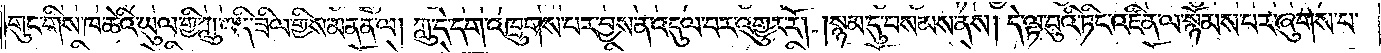གུང་གིས་ཁ་ཆེའི་ཡུལ་གྱི་ཀླུ་འདི་ཟིལ་གྱིས་མནན་ལ། ཀླུ་དེ་དག་འཁྲུགས་པར་བྱས་ན་འདུལ་བར་འགྱུར་རོ། །སྙམ་དུ་བསམས་ནས། དེ་ལྟ་བུའི་ཏིང་འཛིན་ལ་སྙོམས་པར་ཞུགས་པ་
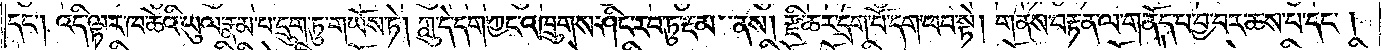དང༌། འདི་ལྟར་ཁ་ཆེའི་ཡུལ་རྣམ་པ་དྲུག་ཏུ་གཡོས་ཏེ། ཀླུ་དེ་དག་ཀྱང་འཁྲུགས་ཤིང་རབ་ཏུ་རྔམ་ནས། རྫི་ཆར་དྲག་པོ་དག་ཕབ་སྟེ། གནས་བརྟན་ལ་གནོད་པ་བྱ་བར་ཆས་པ་དང་།
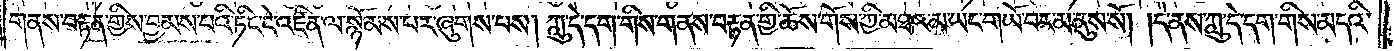གནས་བརྟན་གྱིས་བྱམས་པའི་ཏིང་ངེ་འཛིན་ལ་སྙོམས་པར་ཞུགས་པས། ཀླུ་དེ་དག་གིས་གནས་བརྟན་གྱི་ཆོས་གོས་ཀྱི་མཐའ་མ་ཡང་གཡོ་བར་མ་ནུས་སོ། །དེ་ནས་ཀླུ་དེ་དག་གིས་མདའི་
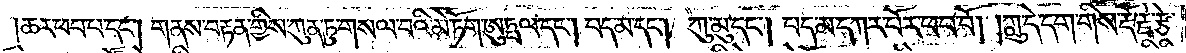།ཆར་ཕབ་པ་དང༌། གནས་བརྟན་གྱིས་ཀུན་ཏུ་གསལ་བའི་མེ་ཏོག་ཨུཏྤལ་དང༌། པད་མ་དང༌། ཀུ་མུ་དང༌། པད་མ་དཀར་པོར་ཕབ་བོ། །ཀླུ་དེ་དག་གིས་རྡོ་རྗེ་རྩེ་
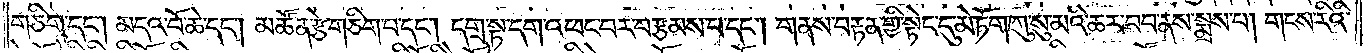གཅིག་དང༌། མདའ་བོ་ཆེ་དང༌། མཚོན་རྩེ་གཅིག་པ་དང༌། དགྲ་སྟ་དག་འཕང་བར་བརྩམས་པ་དང༌། གནས་བརྟན་གྱི་སྟེང་དུ་མེ་ཏོག་ཀུ་སུ་མའི་ཆར་བབ་ནས་སྨྲས་པ། གངས་རིའི་
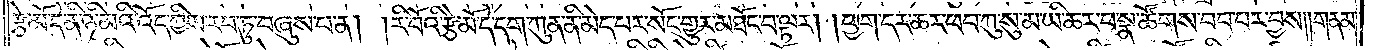རྩེ་མོ་དེ་ནི་ཉི་མའི་འོད་ཀྱིས་རབ་ཏུ་བཞུས་པ་ན། རི་བོའི་རྩེ་མོ་དེ་དག་ཀུན་ནི་མེད་པར་སོང་གྱུར་མཐོང་བ་ལྟར། ཕྱག་དར་ཆར་ཕབ་ཀུ་སུ་མ་ཡི་ཆར་བ་སྣ་ཚོགས་བབ་པར་བྱས། །གནམ་
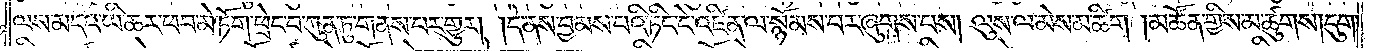ལས་མདའ་ཡི་ཆར་ཕབ་མེ་ཏོག་ཕྲེང་བ་ཀུན་ཏུ་གནས་པར་གྱུར། །དེ་ནས་བྱམས་པའི་ཏིང་ངེ་འཛིན་ལ་སྙོམས་པར་ཞུགས་པས། ལུས་ལ་མེས་མ་ཚིག །མཚོན་གྱིས་མ་ཚུགས་།དུག་
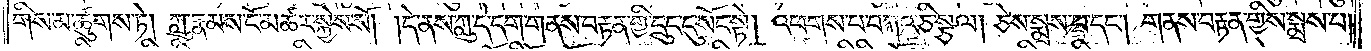གིས་མ་ཚུགས་ཏེ། ཀླུ་རྣམས་ངོ་མཚར་སྐྱེས་སོ། །དེ་ནས་ཀླུ་དེ་དག་གནས་བརྟན་གྱི་དྲུང་དུ་སྟོང་སྟེ། འཕགས་པ་བཀའ་ཅི་སྩལ། ཅེས་སྨྲས་པ་དང༌། གནས་བརྟན་གྱིས་སྨྲས་པ།
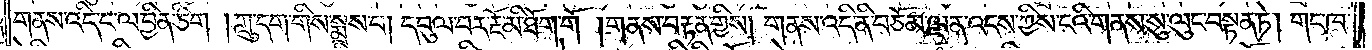གནས་འདི་ང་ལ་བྱིན་ཅིག །ཀླུ་དག་གིས་སྨྲས་པ། དབུལ་བར་རྔོ་མི་ཐོག་གོ། གནས་བརྟན་གྱིས། གནས་འདི་ནི་བཅོམ་ལྡན་འདས་ཀྱིས་ངའི་གནས་སུ་ལུང་བསྟན་ཏེ། གང་ཁ་
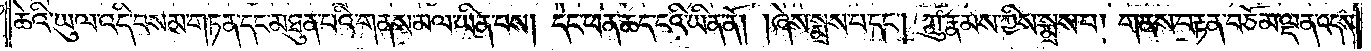ཆེའི་ཡུལ་འདི་བསམ་གཏན་དང་མཐུན་པའི་གནས་མལ་ཡིན་པས། དེང་ཕན་ཆད་ངའི་ཡིན་ནོ། །ཞེས་སྨྲས་པ་དང༌། ཀླུ་རྣམས་ཀྱིས་སྨྲས་པ། གནས་བརྟན་བཅོམ་ལྡན་འདས་
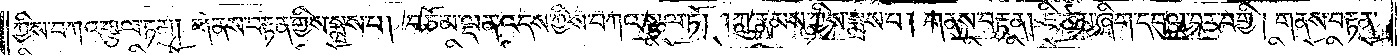ཀྱིས་བཀའ་སྩལ་ཏམ། གནས་བརྟན་གྱིས་སྨྲས་པ། བཅོམ་ལྡན་འདས་ཀྱིས་བཀའ་སྩལ་ཏོ། །ཀླུ་རྣམས་ཀྱིས་སྨྲས་པ། གནས་བརྟན། ཇི་ཙམ་ཞིག་དབུལ་བར་བགྱི། གནས་བརྟན་
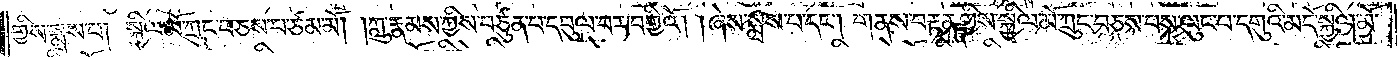གྱིས་སྨྲས་པ། སྐྱིལ་མོ་ཀྲུང་བཅས་པ་ཙམ་མོ། །ཀླུ་རྣམས་ཀྱིས་བཙུན་པ་དབུལ་བར་བགྱིའོ། །ཞེས་སྨྲས་པ་དང༌། གནས་བརྟན་གྱིས་སྐྱིལ་མོ་ཀྲུང་བཅས་པས་ལུང་པ་དགུའི་མདོ་སྐྱིལ་མོ་
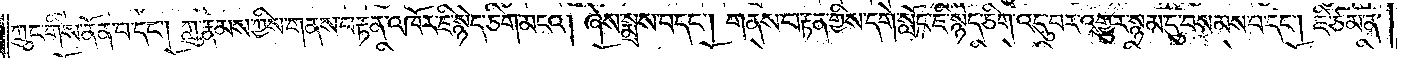ཀྲུང་གིས་ནོན་པ་དང༌། ཀླུ་རྣམས་ཀྱིས་གནས་བརྟན་འཁོར་ཇི་སྙེད་ཅིག་མངའ། ཞེས་སྨྲས་པ་དང༌། གནས་བརྟན་གྱིས་དགེ་སློང་ཇི་སྙེད་ཅིག་འདུ་བར་འགྱུར་སྙམ་དུ་བསམས་པ་དང༌། ཇི་ཙམ་ན་
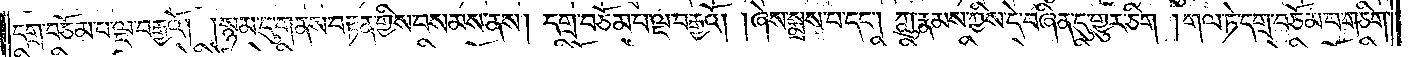དགྲ་བཅོམ་པ་ལྔ་བརྒྱའོ། །སྙམ་དུ་གནས་བརྟན་གྱིས་བསམས་ནས། དགྲ་བཅོམ་པ་ལྔ་བརྒྱའོ། །ཞེས་སྨྲས་པ་དང༌། ཀླུ་རྣམས་ཀྱིས་དེ་བཞིན་དུ་གྱུར་ཅིག །གལ་ཏེ་དགྲ་བཅོམ་པ་གཅིག་
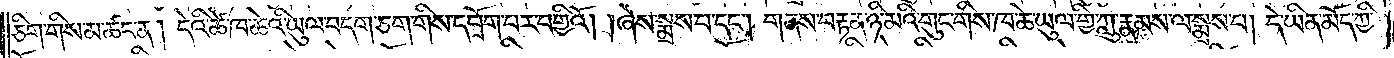ཅིག་གིས་མ་ཚང་ན། དེའི་ཚེ་ཁ་ཆེའི་ཡུལ་བདག་ཅག་གིས་དབྲོག་པར་བགྱིའོ། །ཞེས་སྨྲས་པ་དང༌། གནས་བརྟན་ཉི་མའི་གུང་གིས་ཁ་ཆེ་ཡུལ་གྱི་ཀླུ་རྣམས་ལ་སྨྲས་པ། དེ་ཡིན་མོད་ཀྱི་
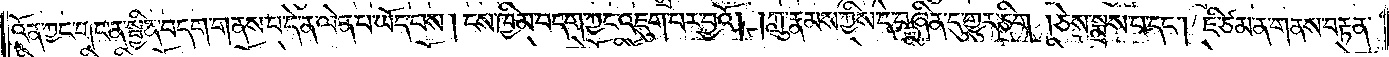འོན་ཀྱང་གང་ན་སྦྱིན་བདག་གནས་པ་དེ་ན་ལེན་པ་ཡོད་པས། ངས་ཁྱིམ་བདག་ཀྱང་འཇུག་པར་བྱའོ། །ཀླུ་རྣམས་ཀྱིས་དེ་བཞིན་དུ་གྱུར་ཅིག །ཅེས་སྨྲས་པ་དང༌། ཇི་ཙམ་ན་གནས་བརྟན་
